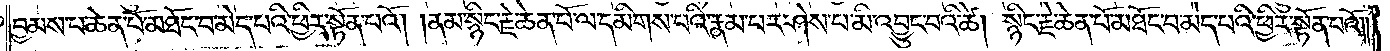བྱམས་པ་ཆེན་པོ་མཐོང་བ་མེད་པའི་ཕྱིར་སྟོན་པའོ། །ནམ་སྙིང་རྗེ་ཆེན་པོ་ལ་དམིགས་པའི་རྣམ་པར་ཤེས་པ་མི་འབྱུང་བའི་ཚེ། སྙིང་རྗེ་ཆེན་པོ་མཐོང་བ་མེད་པའི་ཕྱིར་སྟོན་པའོ། །
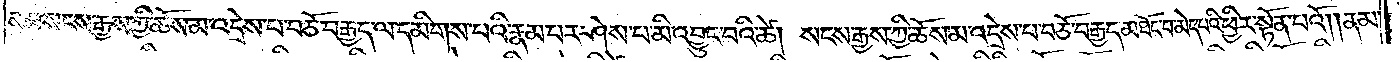ནམ་སངས་རྒྱས་ཀྱི་ཆོས་མ་འདྲེས་པ་བཅོ་བརྒྱད་ལ་དམིགས་པའི་རྣམ་པར་ཤེས་པ་མི་འབྱུང་བའི་ཚེ། སངས་རྒྱས་ཀྱི་ཆོས་མ་འདྲེས་པ་བཅོ་བརྒྱད་མཐོང་བ་མེད་པའི་ཕྱིར་སྟོན་པའོ། །ནམ་
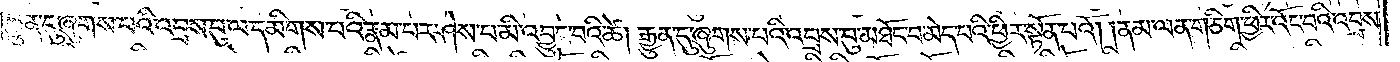རྒྱུན་དུ་ཞུགས་པའི་འབྲས་བུ་ལ་དམིགས་པའི་རྣམ་པར་ཤེས་པ་མི་འབྱུང་བའི་ཚེ། རྒྱུན་དུ་ཞུགས་པའི་འབྲས་བུ་མཐོང་བ་མེད་པའི་ཕྱིར་སྟོན་པའོ། །ནམ་ལན་གཅིག་ཕྱིར་འོང་བའི་འབྲས་
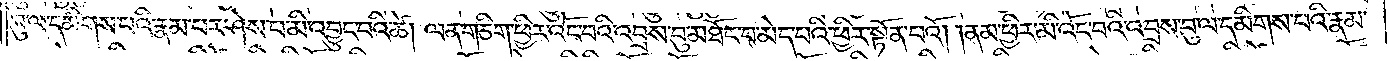བུ་ལ་དམིགས་པའི་རྣམ་པར་ཤེས་པ་མི་འབྱུང་བའི་ཚེ། ལན་གཅིག་ཕྱིར་འོང་བའི་འབྲས་བུ་མཐོང་བ་མེད་པའི་ཕྱིར་སྟོན་པའོ། །ནམ་ཕྱིར་མི་འོང་བའི་འབྲས་བུ་ལ་དམིགས་པའི་རྣམ་
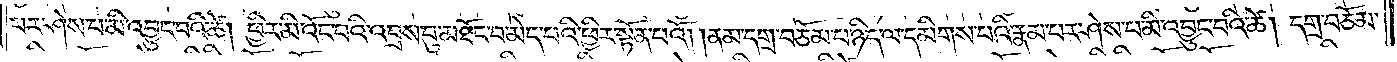པར་ཤེས་པ་མི་འབྱུང་བའི་ཚེ། ཕྱིར་མི་འོང་བའི་འབྲས་བུ་མཐོང་བ་མེད་པའི་ཕྱིར་སྟོན་པའོ། །ནམ་དགྲ་བཅོམ་པ་ཉིད་ལ་དམིགས་པའི་རྣམ་པར་ཤེས་པ་མི་འབྱུང་བའི་ཚེ། དགྲ་བཅོམ་
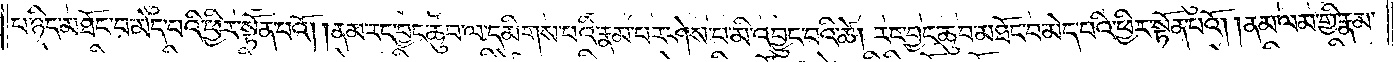པ་ཉིད་མཐོང་བ་མེད་པའི་ཕྱིར་སྟོན་པའོ། །ནམ་རང་བྱང་ཆུབ་ལ་དམིགས་པའི་རྣམ་པར་ཤེས་པ་མི་འབྱུང་པའི་ཚེ། རང་བྱང་ཆུབ་མཐོང་བ་མེད་པའི་ཕྱིར་སྟོན་པའོ། །ནམ་ལམ་གྱི་རྣམ་
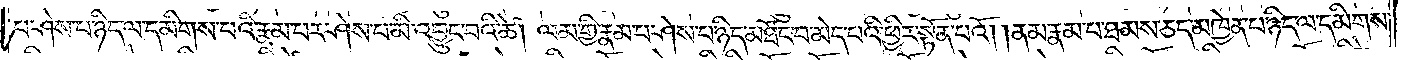པ་ཤེས་པ་ཉིད་ལ་དམིགས་པའི་རྣམ་པར་ཤེས་པ་མི་འབྱུང་བའི་ཚེ། །ལམ་གྱི་རྣམ་པ་ཤེས་པ་ཉིད་མཐོང་བ་མེད་པའི་ཕྱིར་སྟོན་པའོ། །ནམ་རྣམ་པ་ཐམས་ཅད་མཁྱེན་པ་ཉིད་ལ་དམིགས་
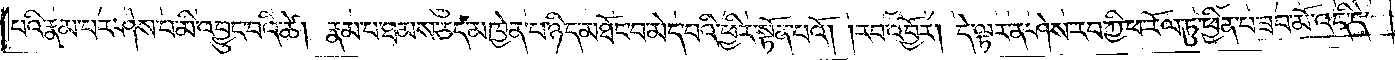པའི་རྣམ་པར་ཤེས་པ་མི་འབྱུང་བའི་ཚེ། རྣམ་པ་ཐམས་ཅད་མཁྱེན་པ་ཉིད་མཐོང་བ་མེད་པའི་ཕྱིར་སྟོན་པའོ། །རབ་འབྱོར། དེ་ལྟར་ན་ཤེས་རབ་ཀྱི་ཕ་རོལ་ཏུ་ཕྱིན་པ་ཟབ་མོ་འདི་དེ་
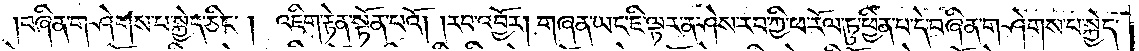བཞིན་གཤེགས་པ་སྐྱེད་ཅིང༌། འཇིག་རྟེན་སྟོན་པའོ། །རབ་འབྱོར། གཞན་ཡང་ཇི་ལྟར་ན་ཤེས་རབ་ཀྱི་ཕ་རོལ་ཏུ་ཕྱིན་པ་དེ་བཞིན་གཤེགས་པ་སྐྱེད་
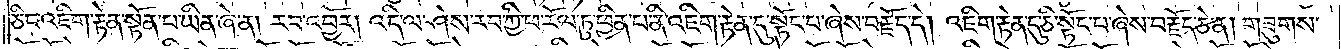ཅིང་འཇིག་རྟེན་སྟོན་པ་ཡིན་ཞེ་ན། རབ་འབྱོར། འདི་ལ་ཤེས་རབ་ཀྱི་ཕ་རོལ་ཏུ་ཕྱིན་པ་ནི་འཇིག་རྟེན་དུ་སྟོང་པ་ཞེས་བརྗོད་དེ། འཇིག་རྟེན་དུ་ཅི་སྟོང་པ་ཞེས་བརྗོད་ཅེ་ན། གཟུགས་
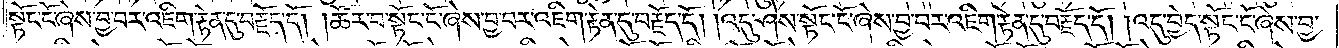སྟོང་ངོ་ཞེས་བྱ་བར་འཇིག་རྟེན་དུ་བརྗོད་དོ། །ཚོར་བ་སྟོང་ངོ་ཞེས་བྱ་བར་འཇིག་རྟེན་དུ་བརྗོད་དོ། །འདུ་ཤེས་སྟོང་ངོ་ཞེས་བྱ་བར་འཇིག་རྟེན་དུ་བརྗོད་དོ། །འདུ་བྱེད་སྟོང་ངོ་ཞེས་བྱ་
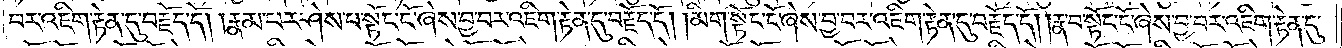བར་འཇིག་རྟེན་དུ་བརྗོད་དོ། །རྣམ་པར་ཤེས་པ་སྟོང་ངོ་ཞེས་བྱ་བར་འཇིག་རྟེན་དུ་བརྗོད་དོ། །མིག་སྟོང་ངོ་ཞེས་བྱ་བར་འཇིག་རྟེན་དུ་བརྗོད་དོ། །རྣ་བ་སྟོང་ངོ་ཞེས་བྱ་བར་འཇིག་རྟེན་དུ་
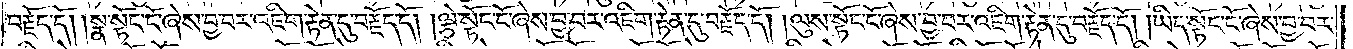བརྗོད་དོ། །སྣ་སྟོང་ངོ་ཞེས་བྱ་བར་འཇིག་རྟེན་དུ་བརྗོད་དོ། །ལྕེ་སྟོང་ངོ་ཞེས་བྱ་བར་འཇིག་རྟེན་དུ་བརྗོད་དོ། །ལུས་སྟོང་ངོ་ཞེས་བྱ་བར་འཇིག་རྟེན་དུ་བརྗོད་དོ། །ཡིད་སྟོང་ངོ་ཞེས་བྱ་བར་
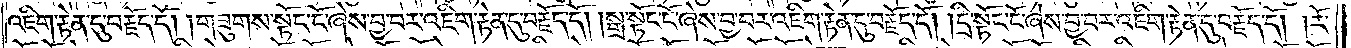འཇིག་རྟེན་དུ་བརྗོད་དོ། །གཟུགས་སྟོང་ངོ་ཞེས་བྱ་བར་འཇིག་རྟེན་དུ་བརྗོད་དོ། །སྒྲ་སྟོང་ངོ་ཞེས་བྱ་བར་འཇིག་རྟེན་དུ་བརྗོད་དོ། །དྲི་སྟོང་ངོ་ཞེས་བྱ་བར་འཇིག་རྟེན་དུ་བརྗོད་དོ། །རོ་
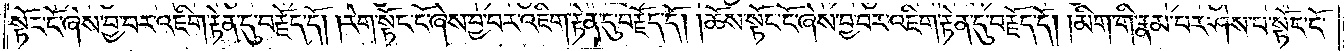སྟོང་ངོ་ཞེས་བྱ་བར་འཇིག་རྟེན་དུ་བརྗོད་དོ། །རེག་སྟོང་ངོ་ཞེས་བྱ་བར་འཇིག་རྟེན་དུ་བརྗོད་དོ། །ཆོས་སྟོང་ངོ་ཞེས་བྱ་བར་འཇིག་རྟེན་དུ་བརྗོད་དོ། །མིག་གི་རྣམ་པར་ཤེས་པ་སྟོང་ངོ་
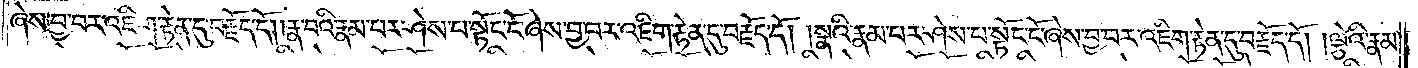ཞེས་བྱ་བར་འཇིག་རྟེན་དུ་བརྗོད་དོ། །རྣ་བའི་རྣམ་པར་ཤེས་པ་སྟོང་ངོ་ཞེས་བྱ་བར་འཇིག་རྟེན་དུ་བརྗོད་དོ། །སྣའི་རྣམ་པར་ཤེས་པ་སྟོང་ངོ་ཞེས་བྱ་བར་འཇིག་རྟེན་དུ་བརྗོད་དོ། །ལྕེའི་རྣམ་
